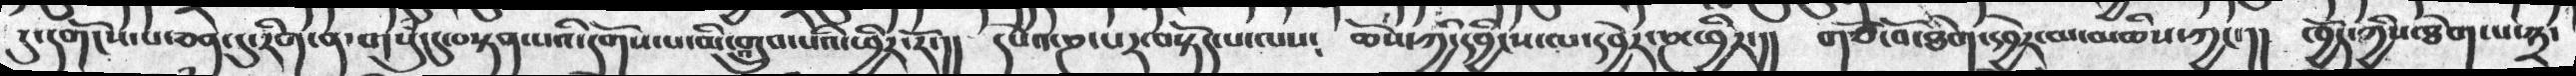དུ་དགོངས་པ་ཅན་དུ་རིག་ན་གསུཾ་དུ་བསྟན་པའི་དགོས་པ་མི་གྲུབ་པའི་ཕྱིར་རོ་།།  དཔེའ་ཎ་པར་བསྟཔད་པ་ལས༴  ཆོས་ཀྱི་དབྱིངས་ཎ་ཕྱིར་།།  གཙོ་བོ་དབྱེར་མ་མཆིས་ཀྱང་།།  ཁྱོད་ཀྱིས་ཐེག་པ་༣་
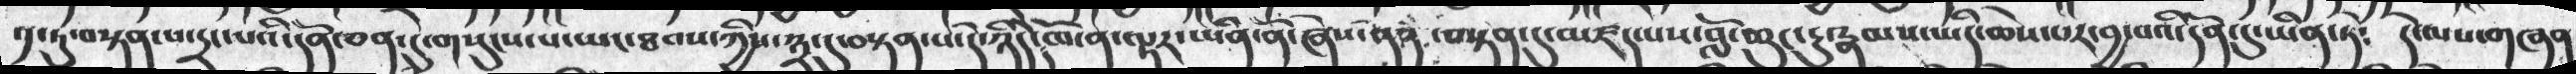༡་ཏུ་བསྟན་པ་དྲང་པའི་དོན་ཅན་དུ་གསུངས་པ་ཡང་ཐབས་ཀྱིས་༣་དུ་བསྟན་པ་དེ་ཉིད་ཁོ་ན་ལྟར་ཡིན་ནོ་ཞེས་ནན་བསྟན་དུ་མཛད་པས་བློ་ཆུང་རུ་རྣམས་ཡིད་ཆེས་པར་བྱ་བའི་དོན་དུ་ཡིན་ཏེ༴  དེ་ལས་གཞན
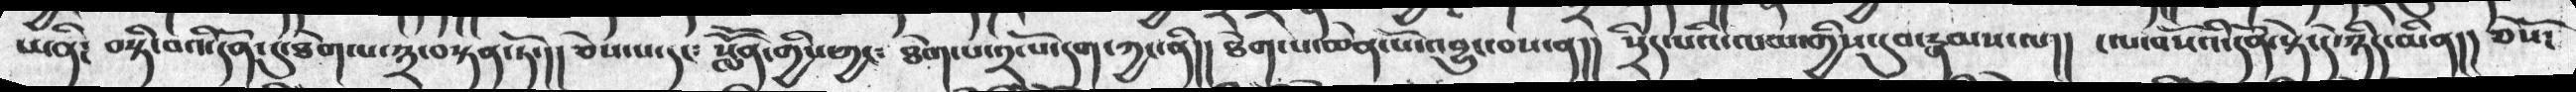ཡིན༴  བསྟི་བའི་དོན་དུ་ཐེག་པ་༣་བསྟན་ཏོ་།། ཅེས་པ་དང༴ སློོན་གྱིས་ཀྱང༴ ཐེག་པ་༢་པོ་དག་ཀྱང་ནི།། ཐེག་པ་ཆེན་པོ་འབྱུང་བས་ན།། སྲིད་པའི་ལམ་གྱིས་དུབ་རྣམས་ལ།། ངལ་བསོཌྷི་དོན་སྟེ་དེ་ཉིད་མིན།། ཅེསོ༴
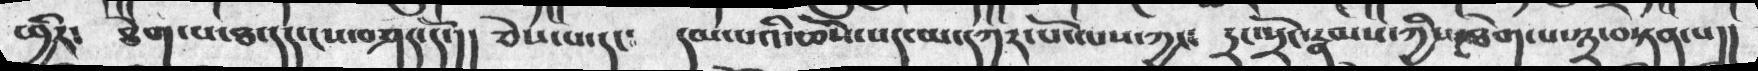ཕྱིར༴ ཐེག་པ་ཐ་དད་ངས་བཤད་དོ་།། ཅེས་པ་དང༴ དམ་པའི་ཆོས་པད་མ་དཀར་པོ་ལས་ཀྱང༴ དྲང་སྲོང་རྣམས་ཀྱིས་ཐེག་པ་༣་བསྟན་པ།།
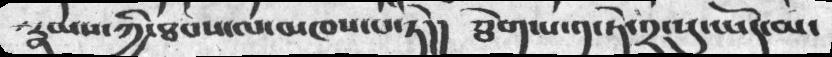རྣམས་ཀྱི་ཐབས་ལ་མཁས་པ་ཏེ།། ཐེག་པ་༡་ཏེ་༢་སུ་ཡོད་མ་
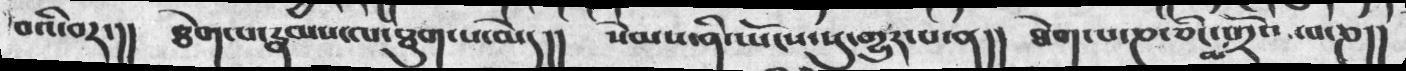བའི་བར་།།   ཐེག་པ་རྣམས་ལ་ཐུག་པ་མེད།།   སེམས་ནི་ཡོངས་སུ་གྱུར་པ་ན།།   ཐེག་པ་ཎ་ཅིང་མ་གྲོལ་བ་ཎ།།
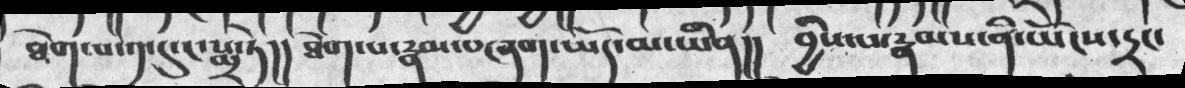ཐེག་པ་༡་དུ་ང་སྨྲ་ཏེ།། ཐེག་པ་རྣམ་བཞག་ཡོད་མ་ཡིན།། བྱིས་པ་རྣམས་ནི་ཡོངས་དྲང་
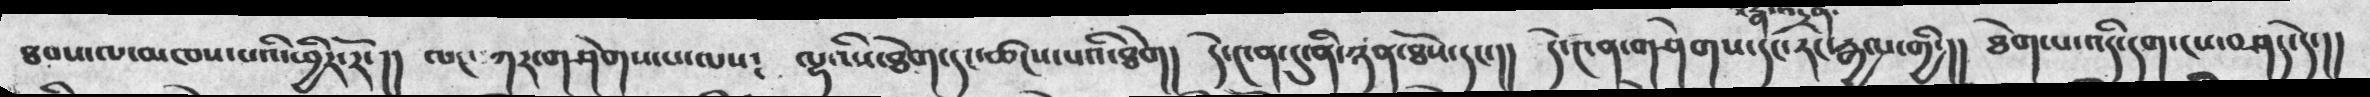ཐབས་ལ་མཁས་པའི་ཕྱིར་རོ་།།  ལང་ཀར་གཤེགས་པ་ལས༴  ལྷའསི་ཐེག་དང་ཚངས་པའི་ཐེག།  དེ་༤ན་དུ་ནི་ཉན་ཐོས་དང་།།  དེ་༤ན་གཤེགས་དང་རང་རྒྱལ་གྱི་།།  ཐེག་པ་འདི་དག་ངས་བཤད་དེ་།།
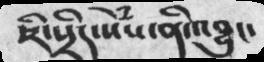ཇི་སྲིད་སེཾས་ནི་འབྱུང་
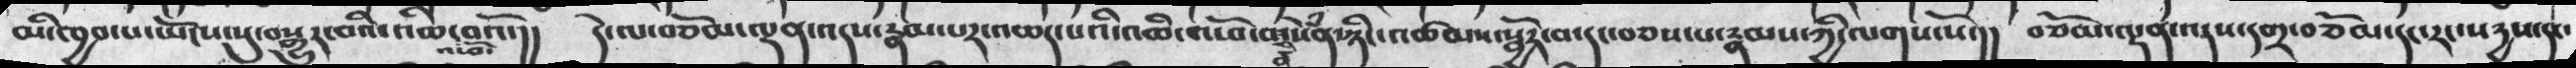མི་ཁྱབ་པ་ཡོངས་སུ་བསྒྱུར་བའི་འཆི་འཕོ་བའོ་།།   དེ་ལ་བཅོམ་ལྡན་འདས་རྣམ་པར་འཆད་པའི་འཆི་འཕོ་བ་ན་སེཾན་ཉིང་འཚམས་སྦྱོར་བ་དང་བཅས་པ་རྣམས་ཀྱི་ལགས་སོ་།།   བཅོམ་ལྡན་འདས་དགྲ་བཅོམ་དང་རང་སདྱས་དང་
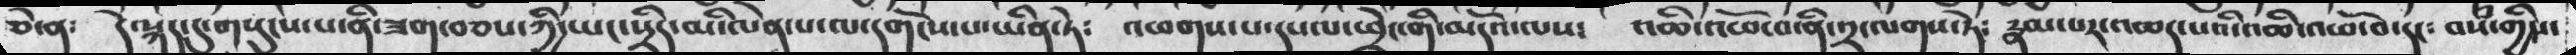ཅེ་ན༴  དེ་སྐད་དུ་གསུངས་པ་ནི་ཟག་བཅས་ཀྱི་ཡང་སྲིད་མི་ལེན་པ་ལ་དགོངས་པ་ཡིན་ཏེ༴  འཕགས་པ་དཔལ་ཕྲེང་གི་མདོའ་ལས༴  འཆི་འཕོ་བ་ནི་༢་ལགས་ཏེ༴ རྣམ་པར་འཆད་པའི་འཆི་འཕོ་བ་དང༴ བསཾ་གྱིས་
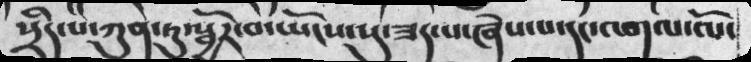སྲིད་པ་ཀུན་ཏུ་སྦྱོར་བ་ཡོངས་སུ་ཟད་པ་ཞེས་པ་དང་འགལ་ལོ་
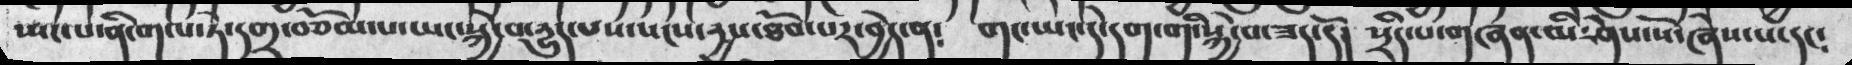ཡང་པ་ནི་གལ་ཏེ་དགྲ་བཅོམ་པ་ཡང་སྐྱེ་བ་རྱུད་པས་སངས་རྱས་ཐོབ་པར་བྱེད་ན༴  གང་ཡང་དེ་དག་གི་སྐྱེ་བ་ཟད་དོ།  སྲིད་པ་གཞན་མི་ཤེས་སོ་ཞེས་པ་དང༴
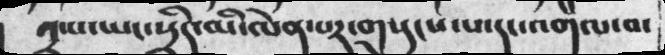༢་པ་ཡང་སྲིད་མི་ལེན་པར་གསུངས་པ་དང་འགལ་བ་
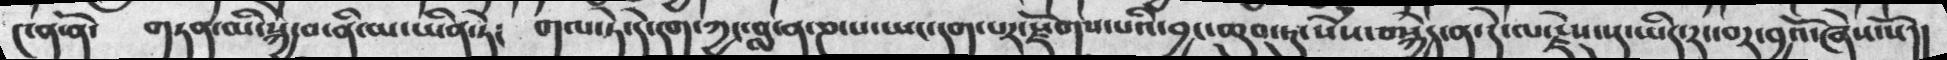༤ན་ནོ་  གཏན་མི་སྐྱེ་བ་ནི་མ་ཡིན་ཏེ༴  གལ་ཏེ་དེ་དག་ཀྱང་བླ་ན་ཎ་པ་ཡང་དག་པར་སྫོགས་པའི་བྱང་ཆུབ་ཏུ་སེཾས་བསྐྱེད་ན་དེ་ལ་རྗེས་སུ་ཡིད་རང་བར་བྱའོ་ཞེས་སོ།།
